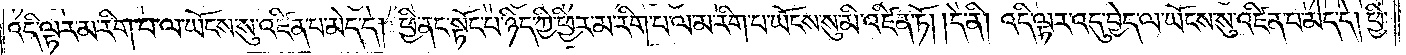འདི་ལྟར་མ་རིག་པ་ལ་ཡོངས་སུ་འཛིན་པ་མེད་དེ། ཕྱི་ནང་སྟོང་པ་ཉིད་ཀྱི་ཕྱིར་མ་རིག་པ་ལ་མ་རིག་པ་ཡོངས་སུ་མི་འཛིན་ཏོ། །དེ་ནི། འདི་ལྟར་འདུ་བྱེད་ལ་ཡོངས་སུ་འཛིན་པ་མེད་དེ། ཕྱི་
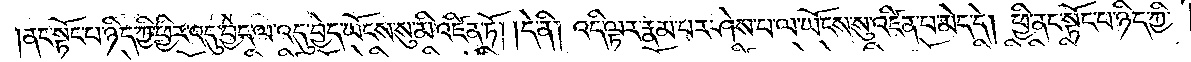ནང་སྟོང་པ་ཉིད་ཀྱི་ཕྱིར། འདུ་བྱེད་ལ་འདུ་བྱེད་ཡོངས་སུ་མི་འཛིན་ཏོ། །དེ་ནི་འདི་ལྟར་རྣམ་པར་ཤེས་པ་ལ་ཡོངས་སུ་འཛིན་པ་མེད་དེ། ཕྱི་ནང་སྟོང་པ་ཉིད་ཀྱི་
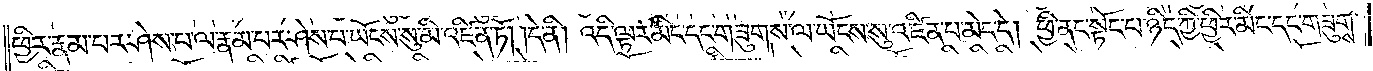ཕྱིར་རྣམ་པར་ཤེས་པ་ལ་རྣམ་པར་ཤེས་པ་ཡོངས་སུ་མི་འཛིན་ཏོ། །དེ་ནི། འདི་ལྟར་མིང་དང་གཟུགས་ལ་ཡོངས་སུ་འཛིན་པ་མེད་དེ། ཕྱི་ནང་སྟོང་པ་ཉིད་ཀྱི་ཕྱིར་མིང་དང་གཟུགས་
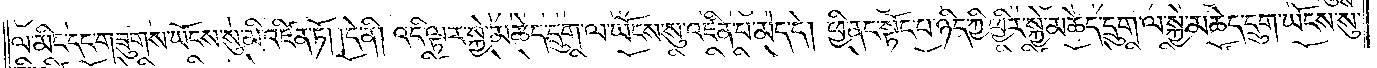ལ་མིང་དང་གཟུགས་ཡོངས་སུ་མི་འཛིན་ཏོ། །དེ་ནི། འདི་ལྟར་སྐྱེ་མཆེད་དྲུག་ལ་ཡོངས་སུ་འཛིན་པ་མེད་དེ། ཕྱི་ནང་སྟོང་པ་ཉིད་ཀྱི་ཕྱིར་སྐྱེ་མཆེད་དྲུག་ལ་སྐྱེ་མཆེད་དྲུག་ཡོངས་སུ་
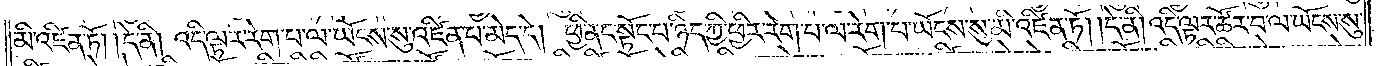མི་འཛིན་ཏོ། །དེ་ནི། འདི་ལྟར་རེག་པ་ལ་ཡོངས་སུ་འཛིན་པ་མེད་དེ། ཕྱི་ནང་སྟོང་པ་ཉིད་ཀྱི་ཕྱིར། རེག་པ་ལ་རེག་པ་ཡོངས་སུ་མི་འཛིན་ཏོ། །དེ་ནི། འདི་ལྟར་ཚོར་བ་ལ་ཡོངས་སུ་
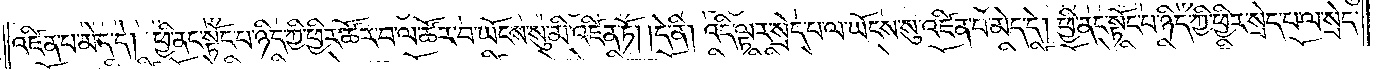འཛིན་པ་མེད་དེ། ཕྱི་ནང་སྟོང་པ་ཉིད་ཀྱི་ཕྱིར་ཚོར་བ་ལ་ཚོར་བ་ཡོངས་སུ་མི་འཛིན་ཏོ། །དེ་ནི། འདི་ལྟར་སྲེད་པ་ལ་ཡོངས་སུ་འཛིན་པ་མེད་དེ། ཕྱི་ནང་སྟོང་པ་ཉིད་ཀྱི་ཕྱིར་སྲེད་པ་ལ་སྲེད་
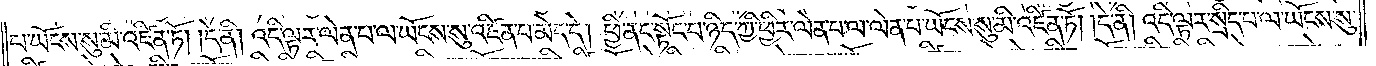པ་ཡོངས་སུ་མི་འཛིན་ཏོ། །དེ་ནི། འདི་ལྟར་ལེན་པ་ལ་ཡོངས་སུ་འཛིན་པ་མེད་དེ། ཕྱི་ནང་སྟོང་པ་ཉིད་ཀྱི་ཕྱིར་ལེན་པ་ལ་ལེན་པ་ཡོངས་སུ་མི་འཛིན་ཏོ། །དེ་ནི། འདི་ལྟར་སྲིད་པ་ལ་ཡོངས་སུ་
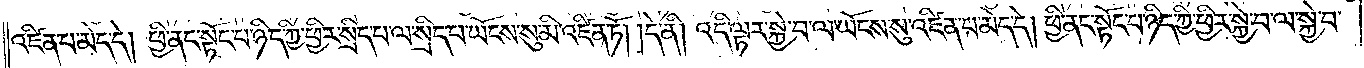འཛིན་པ་མེད་དེ། ཕྱི་ནང་སྟོང་པ་ཉིད་ཀྱི་ཕྱིར་སྲིད་པ་ལ་སྲིད་པ་ཡོངས་སུ་མི་འཛིན་ཏོ། །དེ་ནི། འདི་ལྟར་སྐྱེ་བ་ལ་ཡོངས་སུ་འཛིན་པ་མེད་དེ། ཕྱི་ནང་སྟོང་པ་ཉིད་ཀྱི་ཕྱིར་སྐྱེ་བ་ལ་སྐྱེ་བ་
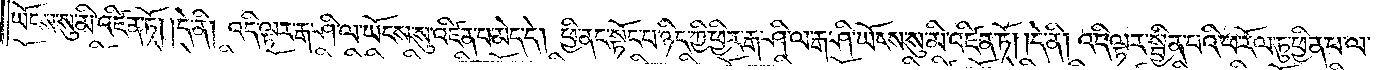ཡོངས་སུ་མི་འཛིན་ཏོ། །དེ་ནི། འདི་ལྟར་རྒ་ཤི་ལ་ཡོངས་སུ་འཛིན་པ་མེད་དེ། ཕྱི་ནང་སྟོང་པ་ཉིད་ཀྱི་ཕྱིར་རྒ་ཤི་ལ་རྒ་ཤི་ཡོངས་སུ་མི་འཛིན་ཏོ། །དེ་ནི། འདི་ལྟར་སྦྱིན་པའི་ཕ་རོལ་ཏུ་ཕྱིན་པ་ལ་
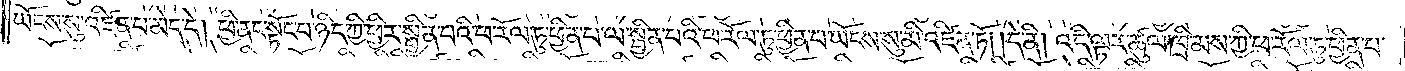ཡོངས་སུ་འཛིན་པ་མེད་དེ། ཕྱི་ནང་སྟོང་པ་ཉིད་ཀྱི་ཕྱིར་སྦྱིན་པའི་ཕ་རོལ་ཏུ་ཕྱིན་པ་ལ་སྦྱིན་པའི་ཕ་རོལ་ཏུ་ཕྱིན་པ་ཡོངས་སུ་མི་འཛིན་ཏོ། །དེ་ནི། འདི་ལྟར་ཚུལ་ཁྲིམས་ཀྱི་ཕ་རོལ་ཏུ་ཕྱིན་པ་
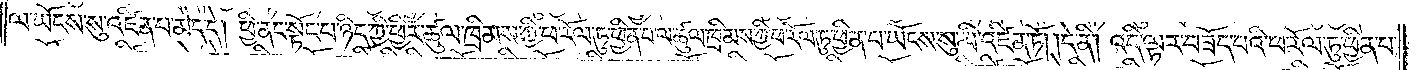ལ་ཡོངས་སུ་འཛིན་པ་མེད་དེ། ཕྱི་ནང་སྟོང་པ་ཉིད་ཀྱི་ཕྱིར་ཚུལ་ཁྲིམས་ཀྱི་ཕ་རོལ་ཏུ་ཕྱིན་པ་ལ་ཚུལ་ཁྲིམས་ཀྱི་ཕ་རོལ་ཏུ་ཕྱིན་པ་ཡོངས་སུ་མི་འཛིན་ཏོ། །དེ་ནི། འདི་ལྟར་བཟོད་པའི་ཕ་རོལ་ཏུ་ཕྱིན་པ་
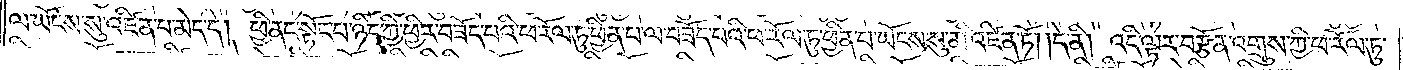ལ་ཡོངས་སུ་འཛིན་པ་མེད་དེ། ཕྱི་ནང་སྟོང་པ་ཉིད་ཀྱི་ཕྱིར་བཟོད་པའི་ཕ་རོལ་ཏུ་ཕྱིན་པ་ལ་བཟོད་པའི་ཕ་རོལ་ཏུ་ཕྱིན་པ་ཡོངས་སུ་མི་འཛིན་ཏོ། །དེ་ནི། འདི་ལྟར་བརྩོན་འགྲུས་ཀྱི་ཕ་རོལ་ཏུ་
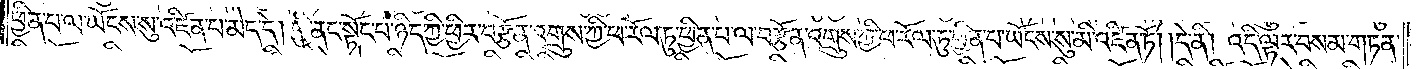ཕྱིན་པ་ལ་ཡོངས་སུ་འཛིན་པ་མེད་དེ། ཕྱི་ནང་སྟོང་པ་ཉིད་ཀྱི་ཕྱིར་བརྩོན་འགྲུས་ཀྱི་ཕ་རོལ་ཏུ་ཕྱིན་པ་ལ་བརྩོན་འགྲུས་ཀྱི་ཕ་རོལ་ཏུ་ཕྱིན་པ་ཡོངས་སུ་མི་འཛིན་ཏོ། །དེ་ནི། འདི་ལྟར་བསམ་གཏན་
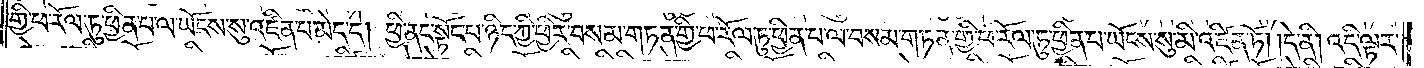གྱི་ཕ་རོལ་ཏུ་ཕྱིན་པ་ལ་ཡོངས་སུ་འཛིན་པ་མེད་དེ། ཕྱི་ནང་སྟོང་པ་ཉིད་ཀྱི་ཕྱིར་བསམ་གཏན་གྱི་ཕ་རོལ་ཏུ་ཕྱིན་པ་ལ་བསམ་གཏན་གྱི་ཕ་རོལ་ཏུ་ཕྱིན་པ་ཡོངས་སུ་མི་འཛིན་ཏོ། །དེ་ནི། འདི་ལྟར་
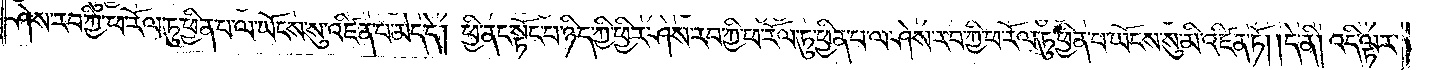ཤེས་རབ་ཀྱི་ཕ་རོལ་ཏུ་ཕྱིན་པ་ལ་ཡོངས་སུ་འཛིན་པ་མེད་དེ། ཕྱི་ནང་སྟོང་པ་ཉིད་ཀྱི་ཕྱིར་ཤེས་རབ་ཀྱི་ཕ་རོལ་ཏུ་ཕྱིན་པ་ལ་ཤེས་རབ་ཀྱི་ཕ་རོལ་ཏུ་ཕྱིན་པ་ཡོངས་སུ་མི་འཛིན་ཏོ། །དེ་ནི། འདི་ལྟར་
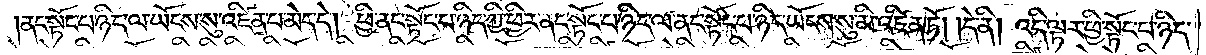ནང་སྟོང་པ་ཉིད་ལ་ཡོངས་སུ་འཛིན་པ་མེད་དེ། ཕྱི་ནང་སྟོང་པ་ཉིད་ཀྱི་ཕྱིར་ནང་སྟོང་པ་ཉིད་ལ་ནང་སྟོང་པ་ཉིད་ཡོངས་སུ་མི་འཛིན་ཏོ། །དེ་ནི། འདི་ལྟར་ཕྱི་སྟོང་པ་ཉིད་
